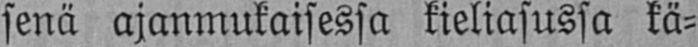senä ajanmukaisessa kieliasussa kä-
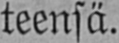teensä.
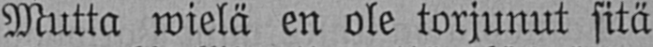Mutta wielä en ole torjunut sitä
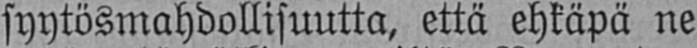syytösmahdollisuutta, että ehkäpä ne
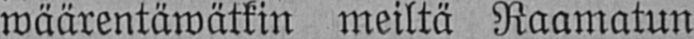wäärentäwätkin meiltä Raamatun
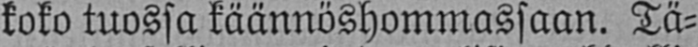koko tuossa käännöshommassaan. Tä-
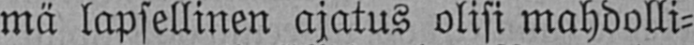mä lapsellinen ajatus olisi mahdolli-
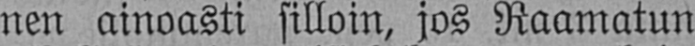nen ainoasti silloin, jos Raamatun
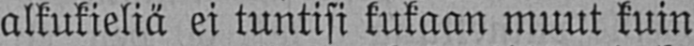alkukieliä ei tuntisi kukaan muut kuin
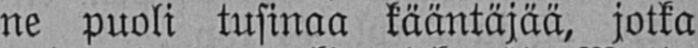ne puoli tusinaa kääntäjää, jotka
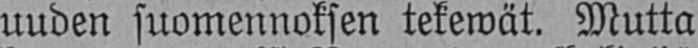uuden suomennoksen tekewät. Mutta
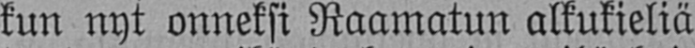kun nyt onneksi Raamatun alkukieliä
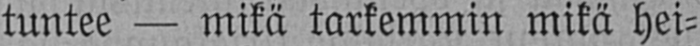tuntee — mikä tarkemmin mikä hei-
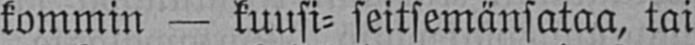kommin — kuusi- seitsemänsataa, tai
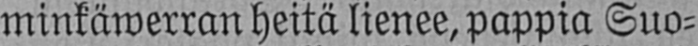minkäwerran heitä lienee, pappia Suo-
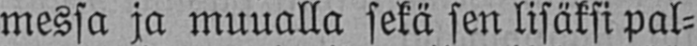messa ja muualla sekä sen lisäksi pal-
